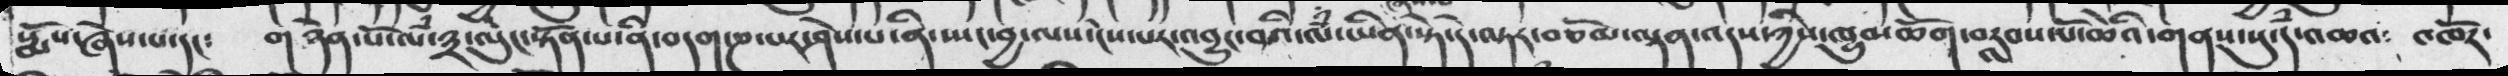སྨོས་ཞེས་པ་དང་   གཉེན་པོ་ལ་༣་ལུང་སྟོན་པ་ནི་བདག་ཎ་པར་ཤེས་པ་ནི་ཡང་བྱ་ལས་ངེས་པར་འབྱུང་བའི་ལཾ་ཡིན་སྟེ་དེ་ལྟར་བཅོམ་ལྡན་འདས་ཀྱིས་ཁྱུ་མཆོག་བརླབས་པོ་ཆེ་འི་གནས་སུ་དཾ་འཆའ༴  འཁོར་
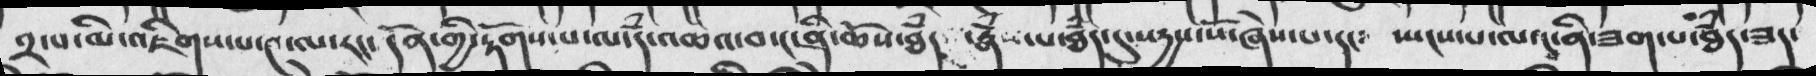༢་པ་མི་འཇིགས་པ་༤་ལ་རང་དོན་གྱི་རྟོགས་པ་ལ་དཾ་འཆའ་བ་དངནི་ཆོས་ཐཾད  ་རྣཾས་པ་ཐཾད་དུ་སདྱས་སོ་ཞེས་པ་དང༴  ཡངས་པ་ལ་ང་ནི་ཟག་པ་ཐཾད་ཟད་
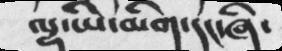ལྷ་ཡི་མིག་དང་ཞི་
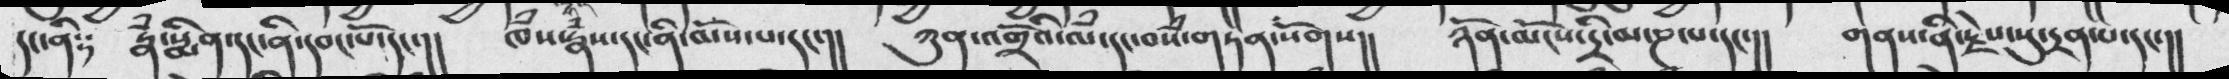དང་ནི༴  རྣཾ་སྨིན་དང་ནི་དབང་པོ་དང་།།  ཁཾས་རྣྃས་དང་ནི་མོས་པ་དང་།།  ཀུན་འགྲོའི་ལཾ་དང་བསཾ་གཏན་སོགས།།  ཉོན་མོངས་དྲི་མ་ཎ་པ་དང་།།  གནས་ནི་རྗེས་སུ་དྲན་པ་དང་།།
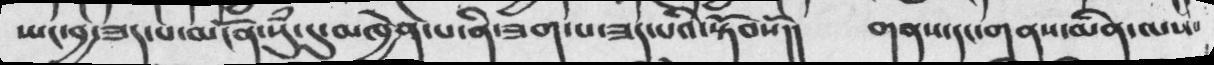ཡང་བྱ་ཟད་པ་མངོན་སུཾ་དུ་མཁྱེན་པ་ནི་ཟག་པ་ཟད་པའི་སྟོབསོ།།    གནས་དང་གནས་མིན་ལས་
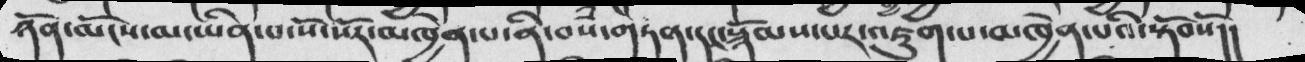ཉོན་མོངས་མ་ཡིན་པ་སོ་སོར་མཁྱེན་པ་ནི་བསཾ་གཏན་དང་སྙོམས་པར་འཇུག་པ་མཁྱེན་པའི་སྟོབསོ།།
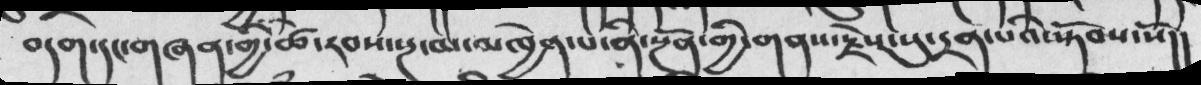བདག་དང་གཞན་གྱི་ཚེ་རབས་སྔ་མ་མཁྱེན་པ་ནི་སྔོན་གྱི་གནས་རྗེས་སུ་དྲན་པའི་སྟོབས་སོ།།
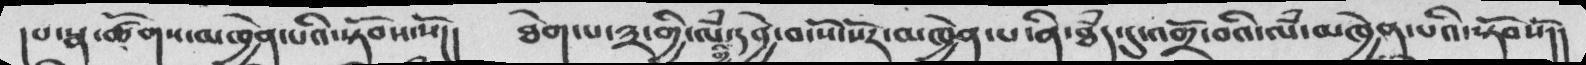།པ་སྣ་ཚོགས་མཁྱེན་པའི་སྟོབས་སོ།།  ཐེག་པ་༣་གྱི་ལཾ་གྱི་དབྱེ་བ་སོ་སོར་མཁྱེན་པ་ནི་ཐཾད་དུ་འགྲོ་བའི་ལཾ་མཁྱེན་པའི་སྟོབསོ།།
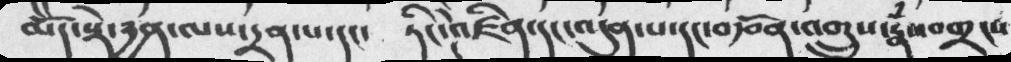མདོ་སྡེ་དྱན་ལས་དྲན་པ་དང་ ཏིང་ངེ་འཛིནདང་འདུན་པ་དང་བརྩོན་འགྲུས་རྣཾས་བགྲངས
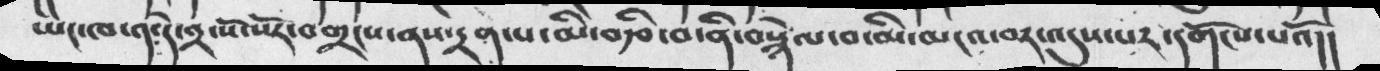ཡང་ཁ་༡༴དེ་༢་སོ་སོར་བགྲངས་ནས་དྲན་པ་མི་བརྩི་བ་ནི་བསྙེལ་བ་མི་མངའ་བར་འདུས་པར་དགོངས་པའོ།།
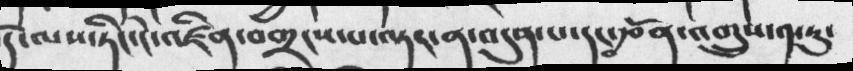དེ་ལས་ཏིང་ངེ་འཛིན་བགྲངས་པ་ལྟར་ན་འདུན་པ་དང་བརྩོན་འགྲུས་༡་ཏུ་
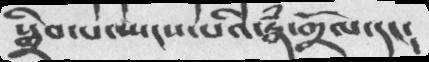སྒྲིབ་པ་སྤངས་པའི་རྣཾ་གྲོལ་དང༴
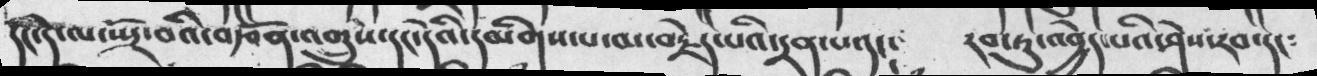དང་དེ་ལ་སྤྲོ་བའི་བརྩོན་འགྲུས་དང་དེའི་དམིགས་པ་མ་བརྗེད་པའི་དྲན་པ་དང༴   རབ་ཏུ་འབྱེད་པའི་ཤེས་རབ་དང༴
